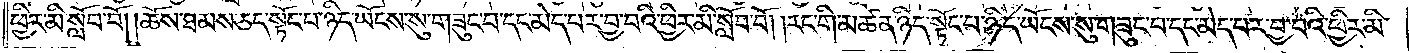ཕྱིར་མི་སློབ་བོ། །ཆོས་ཐམས་ཅད་སྟོང་པ་ཉིད་ཡོངས་སུ་གཟུང་བ་དང་མེད་པར་བྱ་བའི་ཕྱིར་མི་སློབ་བོ། །རང་གི་མཚན་ཉིད་སྟོང་པ་ཉིད་ཡོངས་སུ་གཟུང་བ་དང་མེད་པར་བྱ་བའི་ཕྱིར་མི་
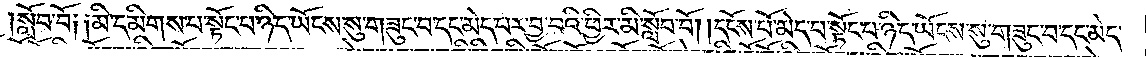སློབ་བོ༑ ༑མི་དམིགས་པ་སྟོང་པ་ཉིད་ཡོངས་སུ་གཟུང་བ་དང་མེད་པར་བྱ་བའི་ཕྱིར་མི་སློབ་བོ། །དངོས་པོ་མེད་པ་སྟོང་པ་ཉིད་ཡོངས་སུ་གཟུང་བ་དང་མེད་
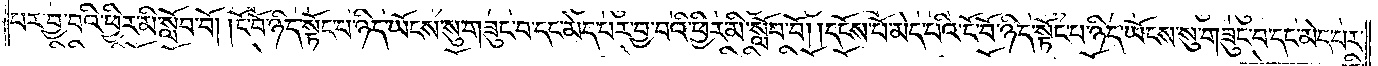པར་བྱ་བའི་ཕྱིར་མི་སློབ་བོ། །ངོ་བོ་ཉིད་སྟོང་པ་ཉིད་ཡོངས་སུ་གཟུང་བ་དང་མེད་པར་བྱ་བའི་ཕྱིར་མི་སློབ་བོ། །དངོས་པོ་མེད་པའི་ངོ་བོ་ཉིད་སྟོང་པ་ཉིད་ཡོངས་སུ་གཟུང་བ་དང་མེད་པར་
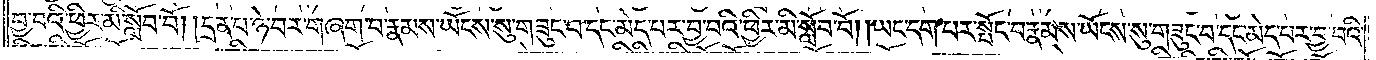བྱ་བའི་ཕྱིར་མི་སློབ་བོ། །དྲན་པ་ཉེ་བར་བཞག་པ་རྣམས་ཡོངས་སུ་གཟུང་བ་དང་མེད་པར་བྱ་བའི་ཕྱིར་མི་སློབ་བོ། །ཡང་དག་པར་སྤོང་བ་རྣམས་ཡོངས་སུ་གཟུང་བ་དང་མེད་པར་བྱ་བའི་
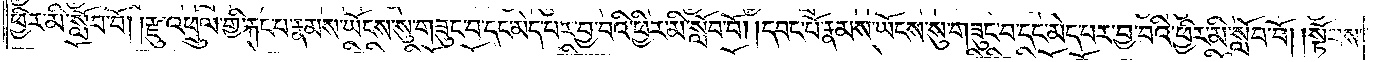ཕྱིར་མི་སློབ་བོ། །རྫུ་འཕྲུལ་གྱི་རྐང་པ་རྣམས་ཡོངས་སུ་གཟུང་བ་དང་མེད་པར་བྱ་བའི་ཕྱིར་མི་སློབ་བོ། །དབང་པོ་རྣམས་ཡོངས་སུ་གཟུང་བ་དང་མེད་པར་བྱ་བའི་ཕྱིར་མི་སློབ་བོ། །སྟོབས་
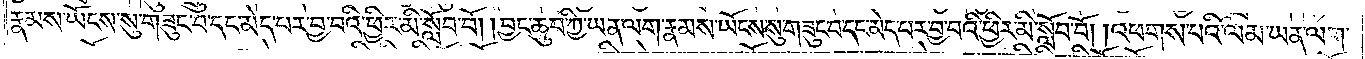རྣམས་ཡོངས་སུ་གཟུང་བ་དང་མེད་པར་བྱ་བའི་ཕྱིར་མི་སློབ་བོ། །བྱང་ཆུབ་ཀྱི་ཡན་ལག་རྣམས་ཡོངས་སུ་གཟུང་བ་དང་མེད་པར་བྱ་བའི་ཕྱིར་མི་སློབ་བོ། །འཕགས་པའི་ལམ་ཡན་ལག་
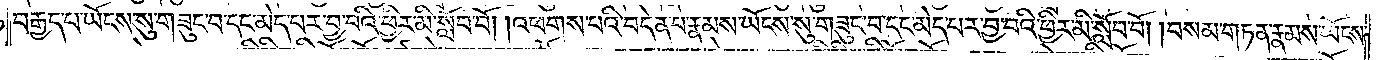བརྒྱད་པ་ཡོངས་སུ་གཟུང་བ་དང་མེད་པར་བྱ་བའི་ཕྱིར་མི་སློབ་བོ། །འཕགས་པའི་བདེན་པ་རྣམས་ཡོངས་སུ་གཟུང་བ་དང་མེད་པར་བྱ་བའི་ཕྱིར་མི་སློབ་བོ། །བསམ་གཏན་རྣམས་ཡོངས་
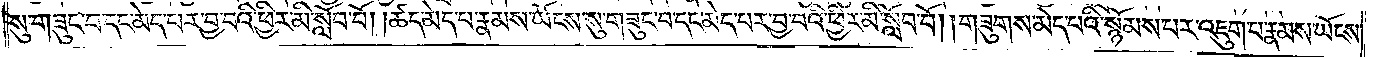སུ་གཟུང་བ་དང་མེད་པར་བྱ་བའི་ཕྱིར་མི་སློབ་བོ། །ཚད་མེད་པ་རྣམས་ཡོངས་སུ་གཟུང་བ་དང་མེད་པར་བྱ་བའི་ཕྱིར་མི་སློབ་བོ། །གཟུགས་མེད་པའི་སྙོམས་པར་འཇུག་པ་རྣམས་ཡོངས་
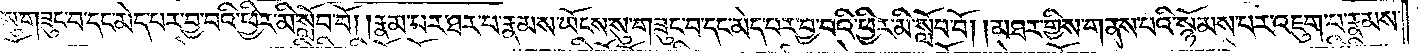སུ་གཟུང་བ་དང་མེད་པར་བྱ་བའི་ཕྱིར་མི་སློབ་བོ། །རྣམ་པར་ཐར་པ་རྣམས་ཡོངས་སུ་གཟུང་བ་དང་མེད་པར་བྱ་བའི་ཕྱིར་མི་སློབ་བོ། །མཐར་གྱིས་གནས་པའི་སྙོམས་པར་འཇུག་པ་རྣམས་
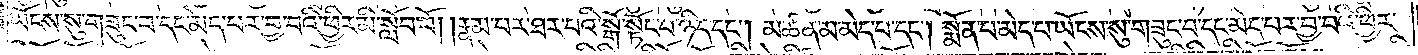ཡོངས་སུ་གཟུང་བ་དང་མེད་པར་བྱ་བའི་ཕྱིར་མི་སློབ་བོ། །རྣམ་པར་ཐར་པའི་སྒོ་སྟོང་པ་ཉིད་དང༌། མཚན་མ་མེད་པ་དང༌། སྨོན་པ་མེད་པ་ཡོངས་སུ་གཟུང་བ་དང་མེད་པར་བྱ་བའི་ཕྱིར་
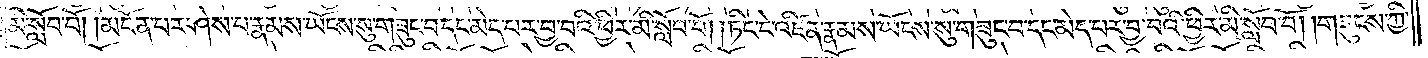མི་སློབ་བོ། །མངོན་པར་ཤེས་པ་རྣམས་ཡོངས་སུ་གཟུང་བ་དང་མེད་པར་བྱ་བའི་ཕྱིར་མི་སློབ་བོ། ཏིང་ངེ་འཛིན་རྣམས་ཡོངས་སུ་གཟུང་བ་དང་མེད་པར་བྱ་བའི་ཕྱིར་མི་སློབ་བོ། །གཟུངས་ཀྱི་
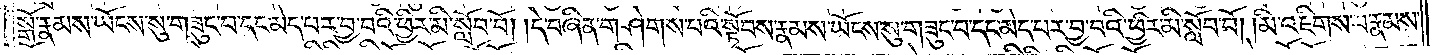སྒོ་རྣམས་ཡོངས་སུ་གཟུང་བ་དང་མེད་པར་བྱ་བའི་ཕྱིར་མི་སློབ་བོ། །དེ་བཞིན་གཤེགས་པའི་སྟོབས་རྣམས་ཡོངས་སུ་གཟུང་བ་དང་མེད་པར་བྱ་བའི་ཕྱིར་མི་སློབ་བོ། །མི་འཇིགས་པ་རྣམས་
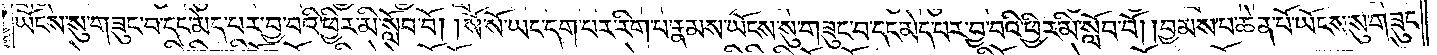ཡོངས་སུ་གཟུང་བ་དང་མེད་པར་བྱ་བའི་ཕྱིར་མི་སློབ་བོ། །སོ་སོ་ཡང་དག་པར་རིག་པ་རྣམས་ཡོངས་སུ་གཟུང་བ་དང་མེད་པར་བྱ་བའི་ཕྱིར་མི་སློབ་བོ། །བྱམས་པ་ཆེན་པོ་ཡོངས་སུ་གཟུང་
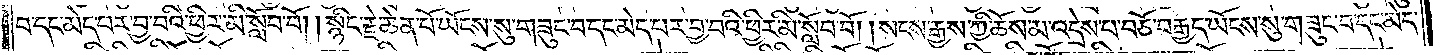བ་དང་མེད་པར་བྱ་བའི་ཕྱིར་མི་སློབ་བོ། །སྙིང་རྗེ་ཆེན་པོ་ཡོངས་སུ་གཟུང་བ་དང་མེད་པར་བྱ་བའི་ཕྱིར་མི་སློབ་བོ། །སངས་རྒྱས་ཀྱི་ཆོས་མ་འདྲེས་པ་བཅོ་བརྒྱད་ཡོངས་སུ་གཟུང་བ་དང་མེད་
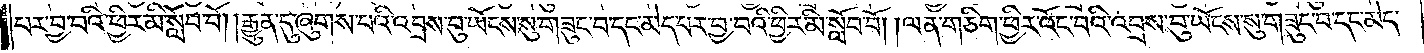པར་བྱ་བའི་ཕྱིར་མི་སློབ་བོ། །རྒྱུན་དུ་ཞུགས་པའི་འབྲས་བུ་ཡོངས་སུ་གཟུང་བ་དང་མེད་པར་བྱ་བའི་ཕྱིར་མི་སློབ་བོ། །ལན་གཅིག་ཕྱིར་འོང་བའི་འབྲས་བུ་ཡོངས་སུ་གཟུང་བ་དང་མེད་
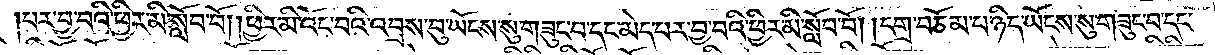པར་བྱ་བའི་ཕྱིར་མི་སློབ་བ། །ཕྱིར་མི་འོང་བའི་འབྲས་བུ་ཡོངས་སུ་གཟུང་བ་དང་མེད་པར་བྱ་བའི་ཕྱིར་མི་སློབ་བོ། །དགྲ་བཅོམ་པ་ཉིད་ཡོངས་སུ་གཟུང་བ་དང་
